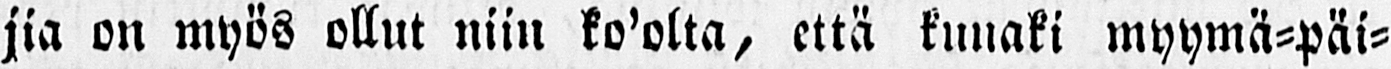jia on myös ollut niin ko'olta, että kunaki myymä-päi-
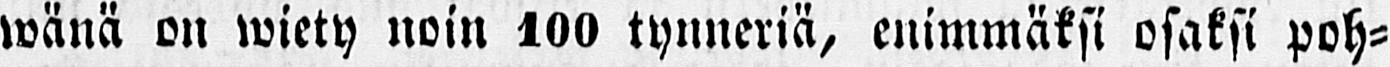wänä on wiety noin 100 tynneriä, enimmäksi osaksi poh-
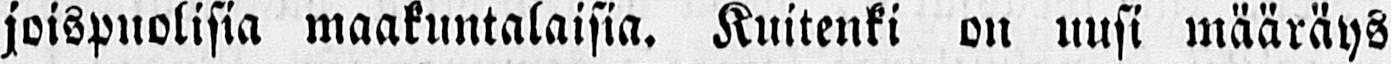joispuolisia maakuntalaisia. Kuitenki on uusi määräys
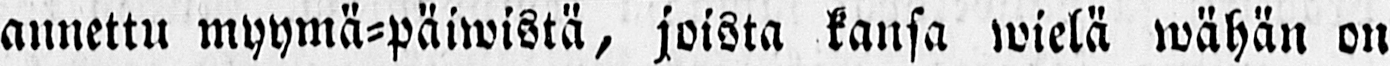annettu myymä-päiwistä, joista kansa wielä wähän on
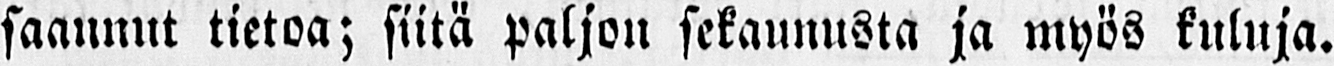saaunut tietoa; siitä paljon sekaunusta ja myös kuluja.
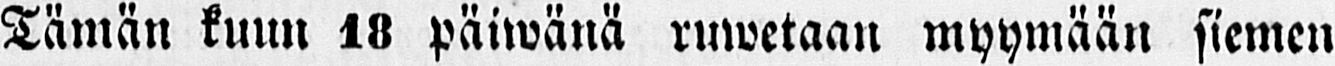Tämän kuun 18 päiwänä ruwetaan myymään siemen
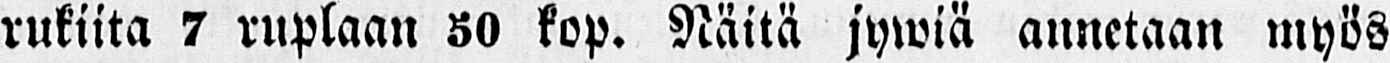rukiita 7 ruplaan 50 kop. Näitä jywiä annetaan myös
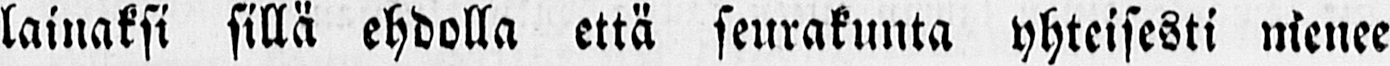lainaksi sillä ehdolla että seurakunta yhteisesti nienee
